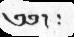༄༅།   ༴
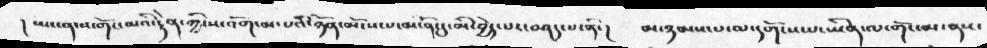།  ཡང་ན་ས་གོང་མའི་རྟེན་ཀྱི་ས་འོག་མ་པའི་ཉོན་མོངས་པ་མངོན་དུ་མི་བྱེད་པར་བཤད་པ་ནི་།    མ་ཉམས་པ་ལ་དགོངས་པ་ཡིན་ལ་གོང་མ་ནས་
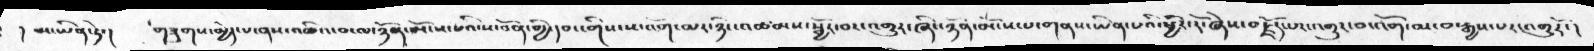།   མ་ཡིན་ཏེ་།   གཟུགས་མྱེད་པ་ནས་འཆིའ་བ་ལ་ཉོན་མོངས་པའི་ས་བོན་གྱི་དབང་གིས་ས་འོག་མར་ཉིང་འཚམས་སྦྱོར་བར་འགྱུར་ཞིང་ཉོན་མོངས་པ་གནས་ཡིན་པའི་ཕྱིར་རོ་ཞེས་བརྗོད་པར་འགྱུར་བ་འོག་མ་བ་རྒྱས་པར་འགྱུརོ་།
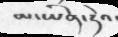མ་ཡིན་ཏེའ་
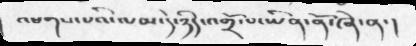འཕགས་པའི་ལམ་དེ་ཉིད་འགྲོ་པ་་ཡིན་ནོ་ཞེ་ན་།
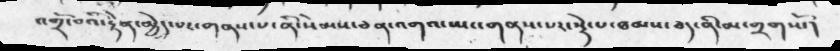འགྲོ་བའི་རྟེན་མྱེད་པར་གནས་པ་ནི་སེམས་ཅན་འགའ་ཡང་གནས་པར་སྡེ་པ་ཐམས་ཅད་ནི་མ་གྲགསོ་།
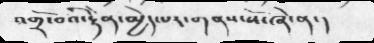འགྲོ་བའི་རྟེན་མྱེད་པར་གནས་སོ་ཞེ་ན་།
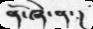ནོ་ཞེ་ན་།
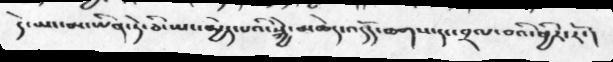དེ་ཡང་མ་ཡིན་ཏེ་ཅི་ཡང་མྱེད་པའི་སྐྱེ་མཆེད་འདོད་ཆགས་དང་བྲལ་བའི་ཕྱིར་རོ་།
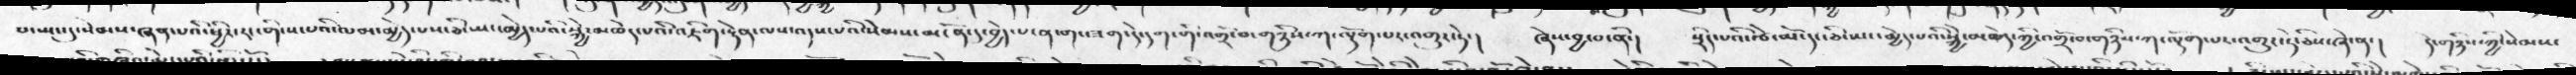པ་ཡང་དུ་སེམས་ཞན་པའི་ཕྱིར་རང་གི་ས་པའི་ལམ་མྱེད་པས་ཅི་ཡང་མྱེད་པའི་སྐྱེ་མཆེད་པའི་འཇིག་རྟེན་ལས་འདས་པའི་སེམས་མངོན་དུ་བྱེད་པ་ན་གང་ཟག་དེ་དག་གི་འགྲོ་བ་གཉིས་ཀ་ལྡོག་པར་འགྱུར་ཏེ་།   ཞེས་བྱ་བ་ནི་།   སྲིད་པའི་རྩེ་མོ་དང་ཅི་ཡང་མྱེད་པའི་སྐྱེ་མཆེད་ཀྱི་འགྲོ་བ་གཉིས་ཀ་ལྡོག་པར་འགྱུར་ཏེ་ཅིས་ཞེ་ན་།  དེ་གཉིས་ཀྱི་སེམས་
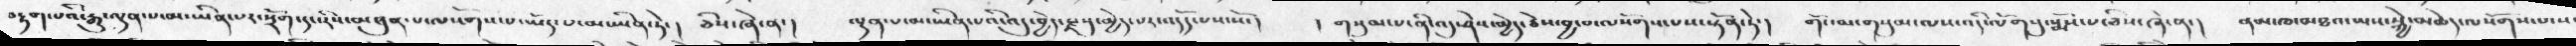བརྟག་པའི་རྒྱུ་ལྡན་པ་མ་ཡིན་པར་སྲོག་དང་རིས་མཐུན་པ་ལ་དགོས་པ་ཡོད་པ་མ་ཡིན་ཏེ་།  ཅིས་ཞེ་ན་།  ལྡན་པ་མ་ཡིན་པའི་འདུ་བྱེད་རྫསུ་མྱེད་པར་འདོད་པས་སོ་།   །གསུམ་པ་ནི་འདུ་ཤེས་མྱེད་ཅེས་བྱ་བ་ལསོགས་པས་སྟོན་ཏེ་།   གོང་མ་གསུམ་ལས་འདི་ལོགསུ་སྨོས་པ་ཅིས་ཞེ་ན་།  ནམ་ཁ་མཐའ་ཡས་སྐྱེ་མཆེད་ལསོགས་པ་ས
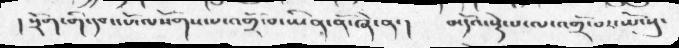། སྲོག་གི་དབང་པོ་ལསོགས་པ་འགྲོ་བ་ཡིན་ནོ་ཞེ་ན་།  མདོའ་སྡེ་པ་ལ་འགྲོ་བར་ཡོངསུ་
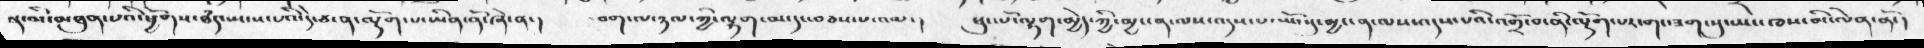ལྔ་མི་མཐུན་པའི་ཕྱོགས་ཐཾད་སྤངས་པའི་དེ་ཙ་ན་ལྡོག་པ་ཡིན་ནོ་ཞེ་ན་།  བག་ལ་ཉལ་ཀྱི་ལྷག་མ་དང་བབས་པ་འམ་།  ཕུང་པོ་ལྷག་མྱེད་ཀྱི་མྱ་ངན་ལས་འདས་པ་ཡོངསུ་མྱ་ངན་ལས་འདས་པའི་འགྲོ་བ་ནི་ལྡོག་པར་གང་ཟག་སུ་ཡང་ཁས་མི་ལེན་ནོ་།
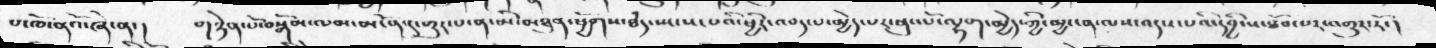པ་ཁོ་ནའོ་ཞེ་ན་།  གཉེན་པོ་བསྒོམ་ལམ་མངོན་དུ་གྱུར་པ་ན་མི་མཐུན་ཕྱོགས་ཐཾད་སྤངས་པའི་ཕྱིར་འབད་པ་མྱེད་པར་ཕུང་པོ་ལྷག་མྱེད་ཀྱི་མྱ་ངན་ལས་འདས་པའི་དབྱིངས་ཐོབ་པར་འགྱུར་རོ་།་
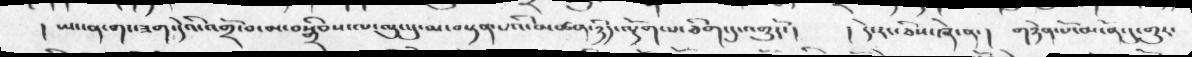།  ཡང་ན་གང་ཟག་དེའི་འགྲོ་བ་མ་བསྒྲིབས་ལ་ལུང་དུ་མ་བསྟན་པའི་མཚན་ཉིད་ལྡོག་པ་ཅིག་དུ་འགྱུརོ་།     ། དེ་རང་ཅིས་ཞེ་ན་།   གཉེན་པོ་མངོན་དུ་གྱུར་
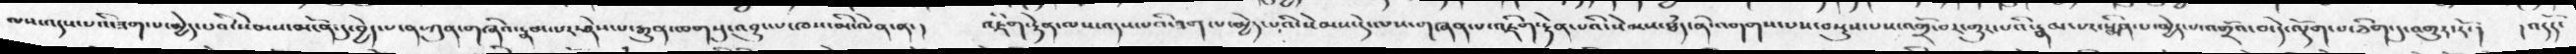ལས་འདས་པའི་ཟག་པ་མྱེད་པའི་སེམས་མངོན་དུ་བྱེད་པ་ན་ཀུན་གཞིའ་རྣམ་པར་ཤེས་པ་རྒྱུན་ཆགསུ་འབྱུང་པ་ཁས་མི་ལེན་ན་།     འཇིག་རྟེན་ལས་འདས་པའི་ཟག་པ་མྱེད་པའི་སེམས་དེ་ལས་གཞན་པ་འཇིག་རྟེན་པའི་སེམས་ཐཾད་ནི་འགགས་པས་བསྡུས་པས་འགྲོ་བར་གྱུར་པའི་རྣམ་པར་སྨིན་པ་མྱེད་པ་འགྲོའ་བ་དེ་ལྡོག་པ་ཅིག་དུ་འགྱུར་རོ་།     ། འདོད་
